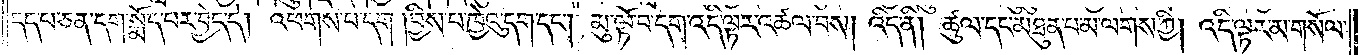དད་པ་ཅན་དག་སྨོད་པར་བྱེད་དེ། འཕགས་པ་དག །བྱིས་པ་ཁྱེའུ་དག་དང༌། མུ་ལྟོ་བ་དག་འདི་ལྟར་འཚལ་བས། འདི་ནི། ཚུལ་དང་མཐུན་པ་མ་ལགས་ཀྱི། འདི་ལྟར་མ་གསོལ་
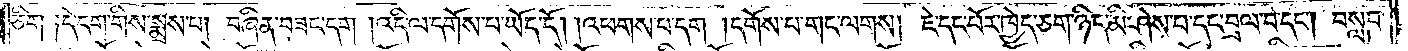ཅིག་༑དེ་དག་གིས་སྨྲས་པ། བཞིན་བཟང་དག །འདི་ལ་དགོས་པ་ཡོད་དོ། །འཕགས་པ་དག །དགོས་པ་གང་ལགས། ཇེ་དང་པོར་ཁྱེད་ཅག་ཉིད་མི་ཤེས་པ་དང་བྲལ་བ་དང༌། བསླབ་
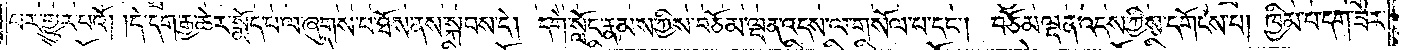པར་གྱུར་པའོ། །དེ་དག་རྒྱ་ཆེར་སྨོད་པ་ལ་ཞུགས་པ་ཐོས་ནས་སྐབས་དེ། དགེ་སློང་རྣམས་ཀྱིས་བཅོམ་ལྡན་འདས་ལ་གསོལ་པ་དང༌། བཅོམ་ལྡན་འདས་ཀྱིས་དགོངས་པ། ཁྱིམ་པ་དག་ཟེར་
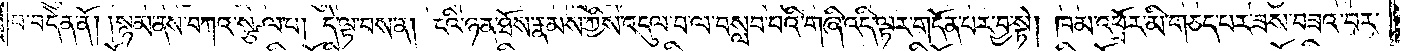པ་བདེན་ནོ། །སྙམ་ནས་བཀའ་སྩལ་པ། དེ་ལྟ་བས་ན། ངའི་ཉན་ཐོས་རྣམས་ཀྱིས་འདུལ་བ་ལ་བསླབ་པའི་གཞི་འདི་ལྟར་གདོན་པར་བྱ་སྟེ། ཁམ་འཕྲོར་མི་གཅད་པར་ཟས་བཟའ་བར་
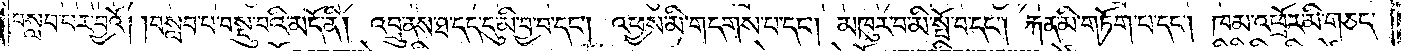བསླབ་པར་བྱའོ། །བསླབ་པ་བསྡུ་བའི་མདོ་ནི། འབྲུ་ནས་ཐ་དད་དུ་མི་བྱ་བ་དང༌། འཕྱས་མི་གདགས་པ་དང༌། མཁུར་བ་མི་སྤོ་བ་དང༌། རྐན་མི་གཏོག་པ་དང༌། ཁམ་འཕྲོར་མི་གཅད་
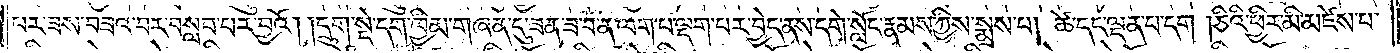པར་ཟས་བཟའ་བར་བསླབ་པར་བྱའོ། །དྲུག་སྡེ་དག་ཁྱིམ་གཞན་དུ་ཟན་ཟ་བ་ན་ལག་པ་ལྡག་པར་བྱེད་ནས་དགེ་སློང་རྣམས་ཀྱིས་སྨྲས་པ། ཚེ་དང་ལྡན་པ་དག །ཅིའི་ཕྱིར་མི་མཛེས་པ་
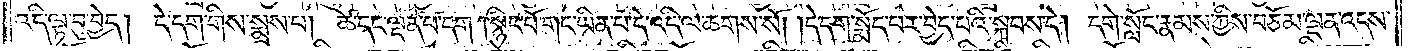འདི་ལྟ་བུ་བྱེད། དེ་དག་གིས་སྨྲས་པ། ཚེ་དང་ལྡན་པ་དག །སྙིང་པོ་གང་ཡིན་པ་དེ་འདི་ལ་ཆགས་སོ། །དེ་དག་སྨོད་པར་བྱེད་པའི་སྐབས་དེ། དགེ་སློང་རྣམས་ཀྱིས་བཅོམ་ལྡན་འདས་
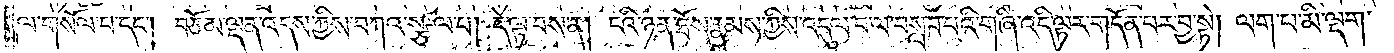ལ་གསོལ་པ་དང༌། བཅོམ་ལྡན་འདས་ཀྱིས་བཀའ་སྩལ་པ། དེ་ལྟ་བས་ན། ངའི་ཉན་ཐོས་རྣམས་ཀྱིས་འདུལ་བ་ལ་བསླབ་པའི་གཞི་འདི་ལྟར་གདོན་པར་བྱ་སྟེ། ལག་པ་མི་ལྡག་
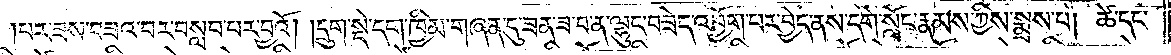པར་ཟས་བཟའ་བར་བསླབ་པར་བྱའོ། །དྲུག་སྡེ་དག་ཁྱིམ་གཞན་དུ་ཟན་ཟ་བ་ན་ལྷུང་བཟེད་འབྱོག་པར་བྱེད་ནས་དགེ་སློང་རྣམས་ཀྱིས་སྨྲས་པ། ཚེ་དང་
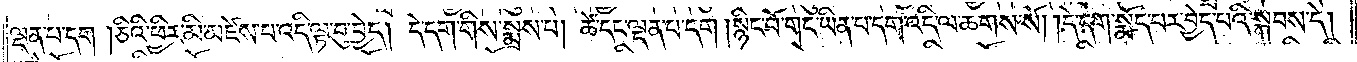ལྡན་པ་དག །ཅིའི་ཕྱིར་མི་མཛེས་པ་འདི་ལྟ་བུ་བྱེད། དེ་དག་གིས་སྨྲས་པ། ཚེ་དང་ལྡན་པ་དག །སྙིང་པོ་གང་ཡིན་པ་དག་འདི་ལ་ཆགས་སོ། །དེ་དག་སྨོད་པར་བྱེད་པའི་སྐབས་དེ།
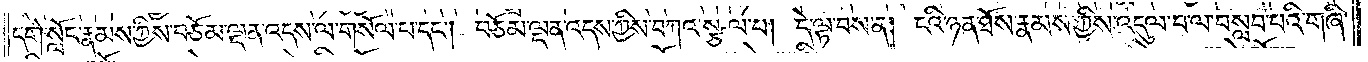དགེ་སློང་རྣམས་ཀྱིས་བཅོམ་ལྡན་འདས་ལ་གསོལ་པ་དང༌། བཅོམ་ལྡན་འདས་ཀྱིས་བཀའ་སྩལ་པ། དེ་ལྟ་བས་ན། ངའི་ཉན་ཐོས་རྣམས་ཀྱིས་འདུལ་བ་ལ་བསླབ་པའི་གཞི་
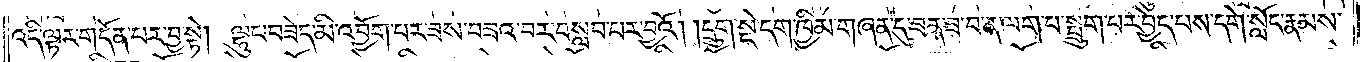འདི་ལྟར་གདོན་པར་བྱ་སྟེ། ལྷུང་བཟེད་མི་འབྱོག་པར་ཟས་བཟའ་བར་བསླབ་པར་བྱའོ། །དྲུག་སྡེ་དག་ཁྱིམ་གཞན་དུ་ཟན་ཟ་བ་ན་ལག་པ་སྤྲུག་པར་བྱེད་པས་དགེ་སློང་རྣམས་
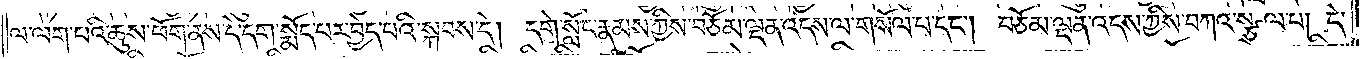ལ་ལག་པའི་ཆུས་ཕོག་ནས་དེ་དག་སྨོད་པར་བྱེད་པའི་སྐབས་དེ། དགེ་སློང་རྣམས་ཀྱིས་བཅོམ་ལྡན་འདས་ལ་གསོལ་པ་དང༌། བཅོམ་ལྡན་འདས་ཀྱིས་བཀའ་སྩལ་པ། དེ་
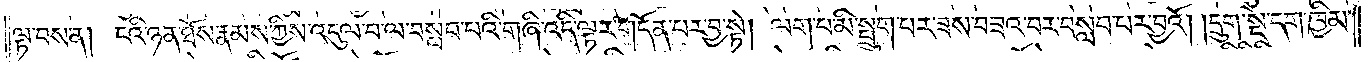ལྟ་བས་ན། ངའི་ཉན་ཐོས་རྣམས་ཀྱིས་འདུལ་བ་ལ་བསླབ་པའི་གཞི་འདི་ལྟར་གདོན་པར་བྱ་སྟེ། ལག་པ་མི་སྤྲུག་པར་ཟས་བཟའ་བར་བསླབ་པར་བྱའོ། །དྲུག་སྡེ་དག་ཁྱིམ་
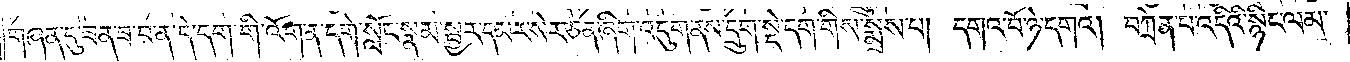གཞན་དུ་ཟན་ཟ་བ་ན་དེ་དག་གི་འོག་ན་དགེ་སློང་རྣམ་སྦྱར་དམར་སེར་ཅན་ཞིག་འདུག་ནས་དྲུག་སྡེ་དག་གིས་སྨྲས་པ། དགའ་བོ་ཉེ་དགའ། བཀྲེན་པ་འདིའི་སྙིང་ལམ་
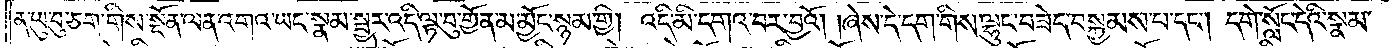ན་ཡུ་བུ་ཅག་གིས་སྔོན་ལན་འགའ་ཡང་སྣམ་སྦྱར་འདི་ལྟ་བུ་གྱོན་མ་མྱོང་སྙམ་གྱི། འདི་མི་དགའ་བར་བྱའོ། །ཞེས་དེ་དག་གིས་ལྷུང་བཟེད་བསྐྱམས་པ་དང༌། དགེ་སློང་དེའི་སྣམ་
